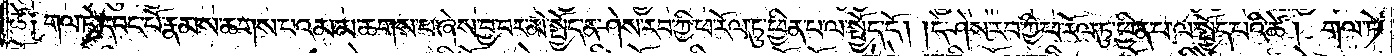ཚེ༑ གལ་ཏེ་དབང་པོ་རྣམས་ཆགས་པའམ་མ་ཆགས་པ་ཞེས་བྱ་བར་མི་སྤྱོད་ན་ཤེས་རབ་ཀྱི་ཕ་རོལ་ཏུ་ཕྱིན་པ་ལ་སྤྱོད་དོ། །དེ་ཤེས་རབ་ཀྱི་ཕ་རོལ་ཏུ་ཕྱིན་པ་ལ་སྤྱོད་པའི་ཚེ། གལ་ཏེ་
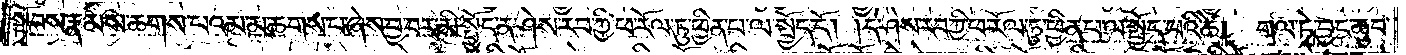སྟོབས་རྣམས་ཆགས་པའམ་མ་ཆགས་པ་ཞེས་བྱ་བར་མི་སྤྱོད་ན་ཤེས་རབ་ཀྱི་ཕ་རོལ་ཏུ་ཕྱིན་པ་ལ་སྤྱོད་དོ། །དེ་ཤེས་རབ་ཀྱི་ཕ་རོལ་ཏུ་ཕྱིན་པ་ལ་སྤྱོད་པའི་ཚེ། གལ་ཏེ་བྱང་ཆུབ་
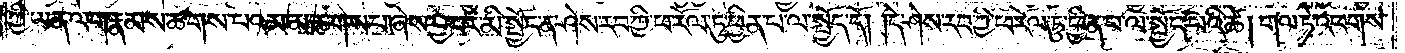ཀྱི་ཡན་ལག་རྣམས་ཆགས་པའམ་མ་ཆགས་པ་ཞེས་བྱ་བར་མི་སྤྱོད་ན་ཤེས་རབ་ཀྱི་ཕ་རོལ་ཏུ་ཕྱིན་པ་ལ་སྤྱོད་དོ། །དེ་ཤེས་རབ་ཀྱི་ཕ་རོལ་ཏུ་ཕྱིན་པ་ལ་སྤྱོད་པའི་ཚེ། གལ་ཏེ་འཕགས་
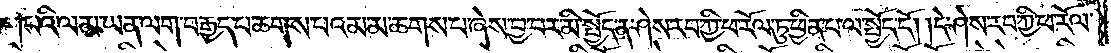པའི་ལམ་ཡན་ལག་བརྒྱད་པ་ཆགས་པའམ་མ་ཆགས་པ་ཞེས་བྱ་བར་མི་སྤྱོད་ན་ཤེས་རབ་ཀྱི་ཕ་རོལ་ཏུ་ཕྱིན་པ་ལ་སྤྱོད་དོ། །དེ་ཤེས་རབ་ཀྱི་ཕ་རོལ་
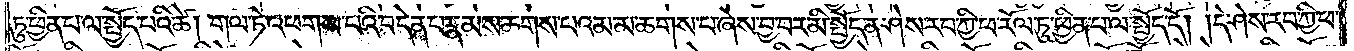ཏུ་ཕྱིན་པ་ལ་སྤྱོད་པའི་ཚེ། གལ་ཏེ་འཕགས་པའི་བདེན་པ་རྣམས་ཆགས་པའམ་མ་ཆགས་པ་ཞེས་བྱ་བར་མི་སྤྱོད་ན་ཤེས་རབ་ཀྱི་ཕ་རོལ་ཏུ་ཕྱིན་པ་ལ་སྤྱོད་དོ། །དེ་ཤེས་རབ་ཀྱི་ཕ་
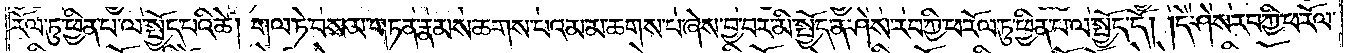རོལ་ཏུ་ཕྱིན་པ་ལ་སྤྱོད་པའི་ཚེ། གལ་ཏེ་བསམ་གཏན་རྣམས་ཆགས་པའམ་མ་ཆགས་པ་ཞེས་བྱ་བར་མི་སྤྱོད་ན་ཤེས་རབ་ཀྱི་ཕ་རོལ་ཏུ་ཕྱིན་པ་ལ་སྤྱོད་དོ། །དེ་ཤེས་རབ་ཀྱི་ཕ་རོལ་
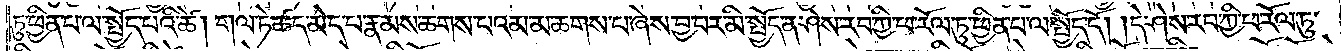ཏུ་ཕྱིན་པ་ལ་སྤྱོད་པའི་ཚེ། གལ་ཏེ་ཚད་མེད་པ་རྣམས་ཆགས་པའམ་མ་ཆགས་པ་ཞེས་བྱ་བར་མི་སྤྱོད་ན་ཤེས་རབ་ཀྱི་ཕ་རོལ་ཏུ་ཕྱིན་པ་ལ་སྤྱོད་དོ། །དེ་ཤེས་རབ་ཀྱི་ཕ་རོལ་ཏུ་
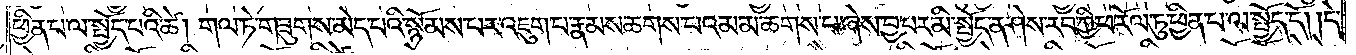ཕྱིན་པ་ལ་སྤྱོད་པའི་ཚེ། གལ་ཏེ་གཟུགས་མེད་པའི་སྙོམས་པར་འཇུག་པ་རྣམས་ཆགས་པའམ་མ་ཆགས་པ་ཞེས་བྱ་བར་མི་སྤྱོད་ན་ཤེས་རབ་ཀྱི་ཕ་རོལ་ཏུ་ཕྱིན་པ་ལ་སྤྱོད་དོ། །དེ་
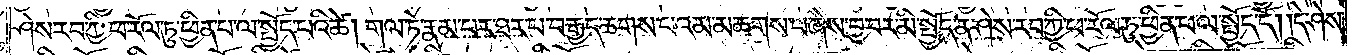ཤེས་རབ་ཀྱི་ཕ་རོལ་ཏུ་ཕྱིན་པ་ལ་སྤྱོད་པའི་ཚེ། གལ་ཏེ་རྣམ་པར་ཐར་པ་བརྒྱད་ཆགས་པའམ་མ་ཆགས་པ་ཞེས་བྱ་བར་མི་སྤྱོད་ན་ཤེས་རབ་ཀྱི་ཕ་རོལ་ཏུ་ཕྱིན་པ་ལ་སྤྱོད་དོ། །དེ་ཤེས་
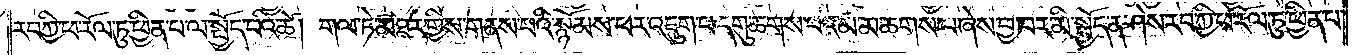རབ་ཀྱི་ཕ་རོལ་ཏུ་ཕྱིན་པ་ལ་སྤྱོད་པའི་ཚེ། གལ་ཏེ་མཐར་གྱིས་གནས་པའི་སྙོམས་པར་འཇུག་པ་དགུ་ཆགས་པའམ་མ་ཆགས་པ་ཞེས་བྱ་བར་མི་སྤྱོད་ན་ཤེས་རབ་ཀྱི་ཕ་རོལ་ཏུ་ཕྱིན་པ་
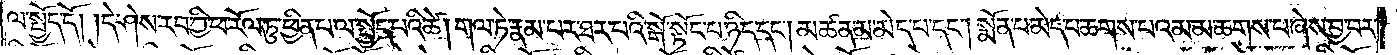ལ་སྤྱོད་དོ། །དེ་ཤེས་རབ་ཀྱི་ཕ་རོལ་ཏུ་ཕྱིན་པ་ལ་སྤྱོད་པའི་ཚེ། གལ་ཏེ་རྣམ་པར་ཐར་པའི་སྒོ་སྟོང་པ་ཉིད་དང༌། མཚན་མ་མེད་པ་དང༌། སྨོན་པ་མེད་པ་ཆགས་པའམ་མ་ཆགས་པ་ཞེས་བྱ་བར་
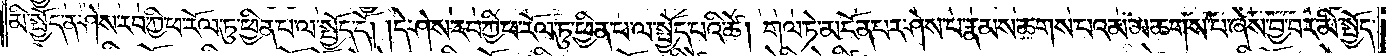མི་སྤྱོད་ན་ཤེས་རབ་ཀྱི་ཕ་རོལ་ཏུ་ཕྱིན་པ་ལ་སྤྱོད་དོ། །དེ་ཤེས་རབ་ཀྱི་ཕ་རོལ་ཏུ་ཕྱིན་པ་ལ་སྤྱོད་པའི་ཚེ། གལ་ཏེ་མངོན་པར་ཤེས་པ་རྣམས་ཆགས་པའམ་མ་ཆགས་པ་ཞེས་བྱ་བར་མི་སྤྱོད་
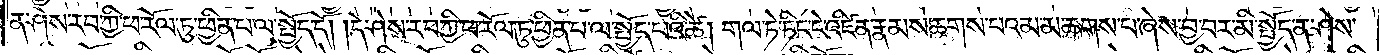ན་ཤེས་རབ་ཀྱི་ཕ་རོལ་ཏུ་ཕྱིན་པ་ལ་སྤྱོད་དོ། །དེ་ཤེས་རབ་ཀྱི་ཕ་རོལ་ཏུ་ཕྱིན་པ་ལ་སྤྱོད་པའི་ཚེ། གལ་ཏེ་ཏིང་ངེ་འཛིན་རྣམས་ཆགས་པའམ་མ་ཆགས་པ་ཞེས་བྱ་བར་མི་སྤྱོད་ན་ཤེས་
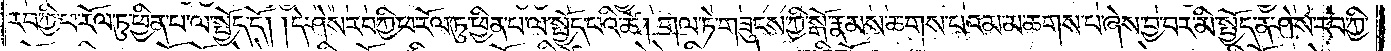རབ་ཀྱི་ཕ་རོལ་ཏུ་ཕྱིན་པ་ལ་སྤྱོད་དོ། །དེ་ཤེས་རབ་ཀྱི་ཕ་རོལ་ཏུ་ཕྱིན་པ་ལ་སྤྱོད་པའི་ཚེ། གལ་ཏེ་གཟུངས་ཀྱི་སྒོ་རྣམས་ཆགས་པའམ་མ་ཆགས་པ་ཞེས་བྱ་བར་མི་སྤྱོད་ན་ཤེས་རབ་ཀྱི་
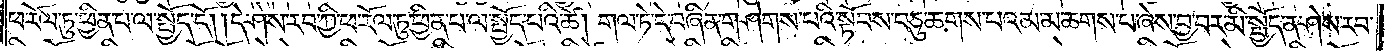ཕ་རོལ་ཏུ་ཕྱིན་པ་ལ་སྤྱོད་དོ། །དེ་ཤེས་རབ་ཀྱི་ཕ་རོལ་ཏུ་ཕྱིན་པ་ལ་སྤྱོད་པའི་ཚེ། གལ་ཏེ་དེ་བཞིན་གཤེགས་པའི་སྟོབས་བཅུ་ཆགས་པའམ་མ་ཆགས་པ་ཞེས་བྱ་བར་མི་སྤྱོད་ན་ཤེས་རབ་
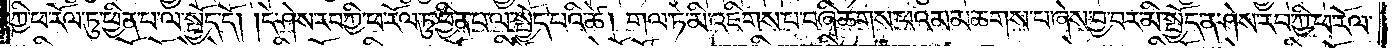ཀྱི་ཕ་རོལ་ཏུ་ཕྱིན་པ་ལ་སྤྱོད་དོ། །དེ་ཤེས་རབ་ཀྱི་ཕ་རོལ་ཏུ་ཕྱིན་པ་ལ་སྤྱོད་པའི་ཚེ། གལ་ཏེ་མི་འཇིགས་པ་བཞི་ཆགས་པའམ་མ་ཆགས་པ་ཞེས་བྱ་བར་མི་སྤྱོད་ན་ཤེས་རབ་ཀྱི་ཕ་རོལ་
